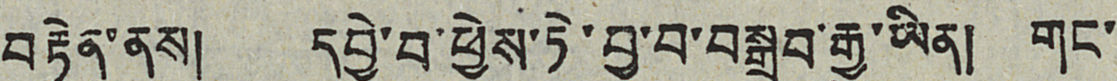བརྟེན་ནས། དབྱེ་བ་ཕྱེས་ཏེ་བྱ་བ་བསྒྲུབ་རྒྱུ་ཡིན། གང་
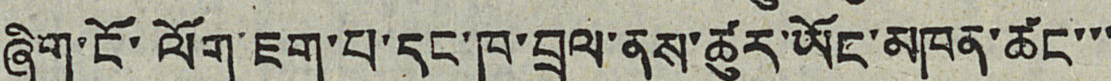ཞིག་ངོ་ལོག་ཇག་པ་དང་ཁག་བྲལ་ནས་ཚུར་ཡོང་མཁན་ཚང་་་
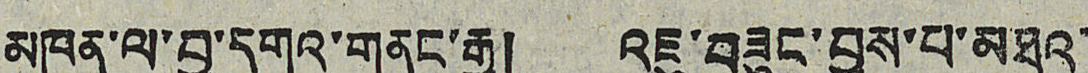མཁན་ལ་བྱ་དགའ་གནང་རྒྱུ། འཇུ་བཟུང་བྱས་པ་མཐའ་་
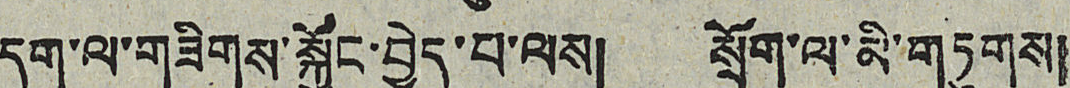དག་ལ་གཟིགས་སྐྱོང་བྱེད་པ་ལས། སྲོག་ལ་མི་གཏུགས།
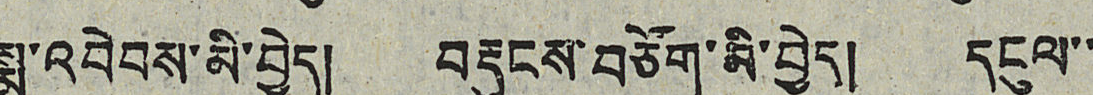སྨ་འབེབས་མི་བྱེད། བརྡུངས་བཙོག་མི་བྱེད། དངུལ་་
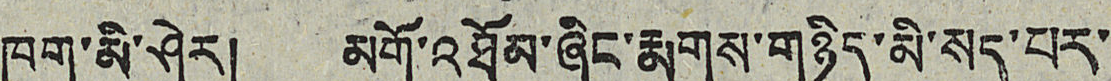ཁུག་མི་ཤེར། མགོ་འཐོམ་ཞིང་རྨུགས་གཉིད་མི་སད་པར་
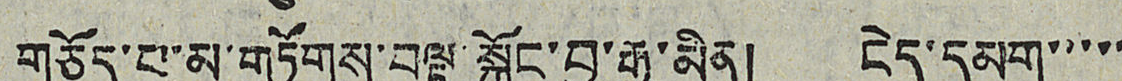གཅོད་པ་མ་གཏོགས་བལྟ་སྐྱོང་བྱ་རྒྱུ་མིན། ངེད་དམག་་་་་
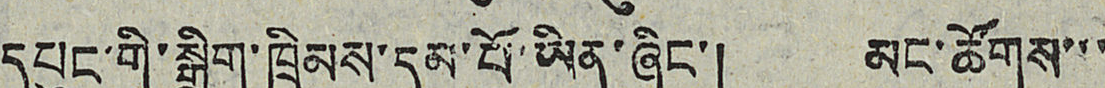དཔུང་གི་སྒྲིག་གྲིམས་དམ་པོ་ཡིན་ཞིང་། མང་ཚོགས་་་
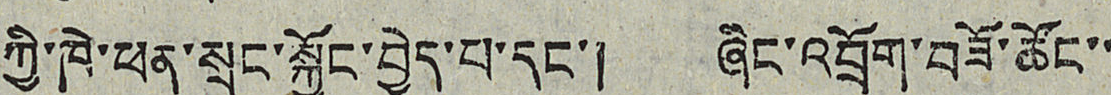ཀྱི་ཁེ་ཕན་སྲུང་སྐྱོང་བྱེད་པ་དང་། ཞིང་འབྲོག་བཟོ་ཚོང་་
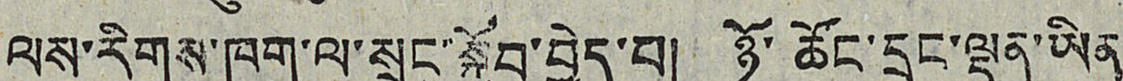ལས་རིགས་ཁག་ལ་སྲུང་སྐྱོབ་བྱེད་པ། ཉོ་ཚོང་དྲང་ལྡན་ཡིན
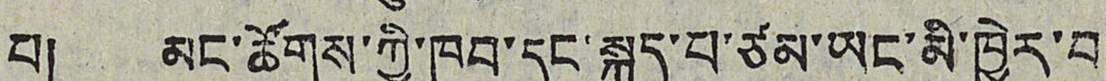པ། མང་ཚོགས་ཀྱི་ཁབ་དང་སྐུད་པ་ཙམ་ཡང་མི་ཁྱེར་བ།
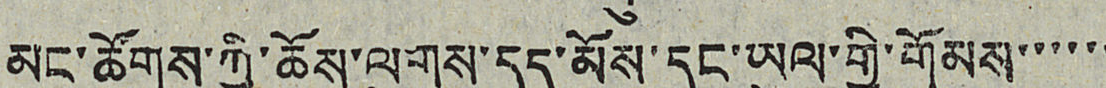མང་ཚོགས་ཀྱི་ཆོས་ལུགས་དད་མོས་དང་ཡུལ་གྱི་གོམས་་་་་་
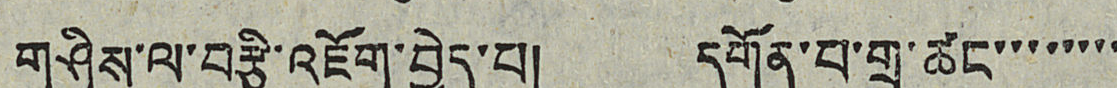གཤིས་ལ་བརྩི་འཇོག་བྱེད་པ། དགོན་པ་གྲ་ཚང་་་་་་་་
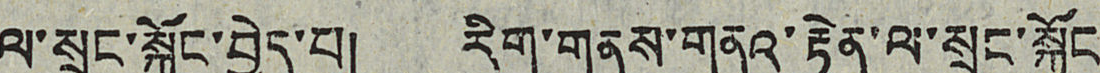ལ་སྲུང་སྐྱོང་བྱེད་པ། རིག་གནས་གནའ་རྟེན་ལ་སྲུང་སྐྱོང་
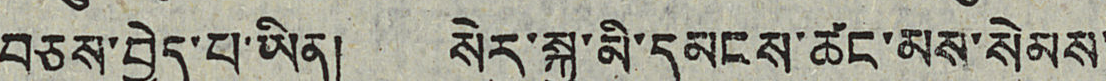བཅས་བྱེད་པ་ཡིན། སེར་སྐྱ་མི་དམངས་ཚང་མས་སེམས་
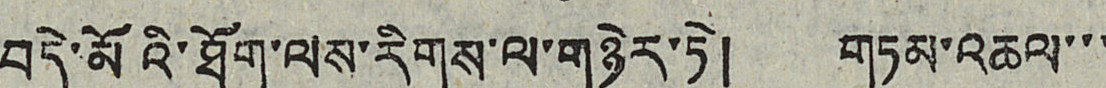བདེ་མོའི་ཐོག་ལས་རིགས་ལ་གཉེར་ཏེ། གཏམ་འཆལ་་་
